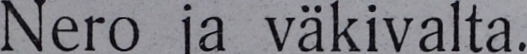Nero ja väkivalta.
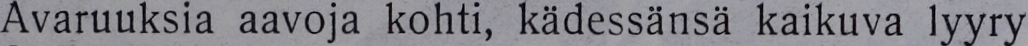Avaruuksia aavoja kohti, kädessänsä kaikuva lyyry
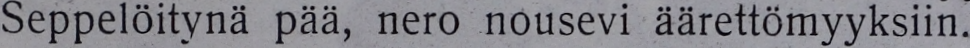Seppelöitynä pää, nero nousevi äärettömyyksiin.
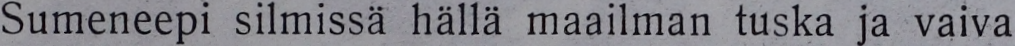Sumeneepi silmissä hällä maailman tuska ja vaiva
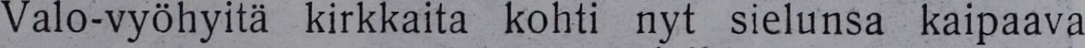Valo-vyöhyitä kirkkaita kohti nyt sielunsa kaipaava
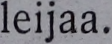leijaa.
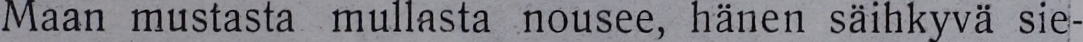Maan mustasta mullasta nousee, hänen säihkyvä sie-
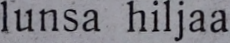lunsa hiljaa
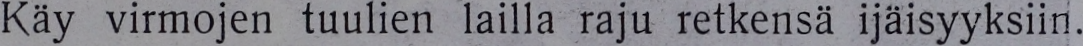Käy virmojen tuulien lailla raju retkensä ijäisyyksiin.
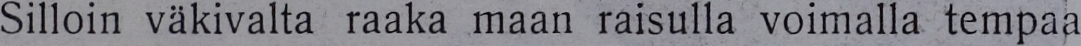Silloin väkivalta raaka maan raisulla voimalla tempaa
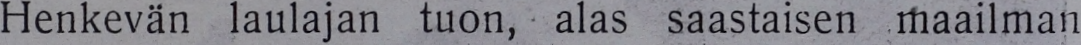Henkevän laulajan tuon, alas saastaisen maailman
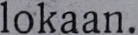lokaan.
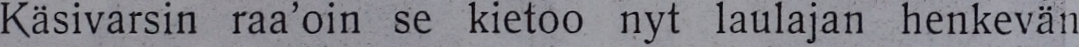Käsivarsin raa'oin se kietoo nyt laulajan henkevän
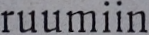ruumiin
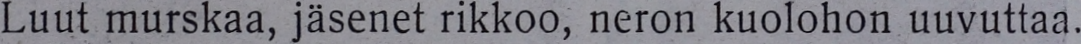Luut murskaa, jäsenet rikkoo, neron kuolohon uuvuttaa.
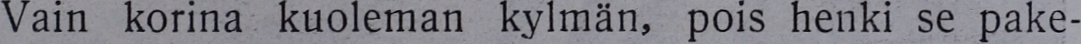Vain korina kuoleman kylmän, pois henki se pake-
